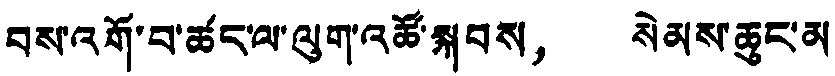བས་འགོ་བ་ཚང་ལ་ལུག་འཚོ་སྐབས， སེམས་ཆུང་མ་
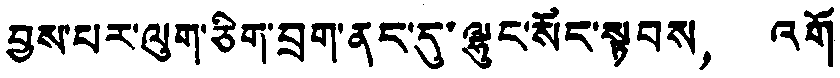བྱས་པར་ལུག་ཅིག་བྲག་ནང་དུ་ལྷུང་སོང་སྟབས， འགོ་
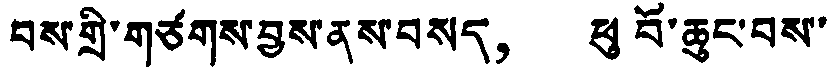བས་གྲི་གཙགས་བྱས་ནས་བསད， ཕུ བོ་ཆུང་བས་
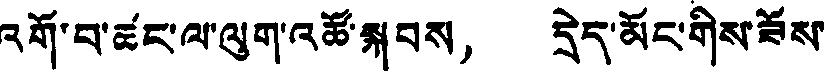འགོ་བ་ཚང་ལ་ལུག་འཚོ་སྐབས， དྲེད་མོང་གིས་ཟོས་
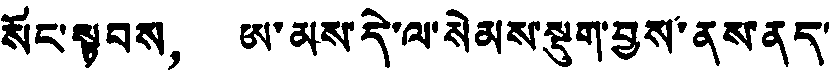སོང་སྟབས， ཨ་མས་དེ་ལ་སེམས་སྡུག་བྱས་ནས་ནད་
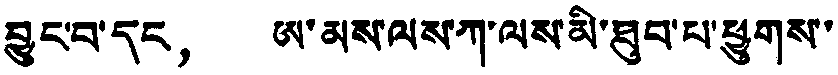བྱུང་བ་དང， ཨ་མས་ལས་ཀ་ལས་མི་ཐུབ་པ་ཕྱུགས་་
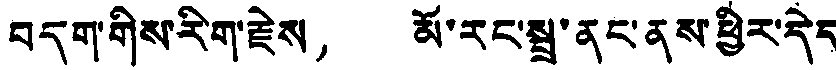བདག་གིས་རིག་རྗེས，མོ་རང་སྦྲ་ནང་ནས་ཕྱིར་དེད་
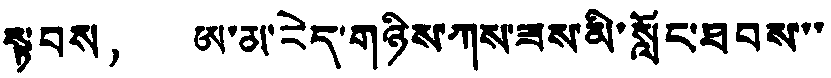སྟབས，ཨ་མ་རེད་གཉིས་ཀས་ཟས་མི་སློང་ཐབས་་
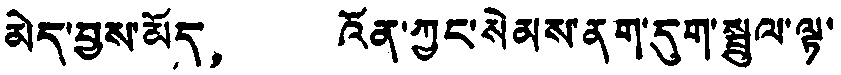མེད་བྱས་མོད，འོན་ཀྱང་སེམས་ནག་དུག་སྦྲུལ་ལྟ་
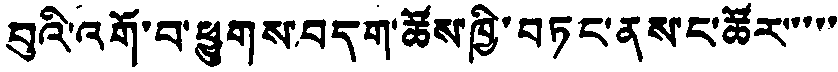བུའི་འགོ་བ་ཕྱུགས་བདག་ཚོས་ཁྱི་བཏང་ནས་ང་ཚོར་་་་་
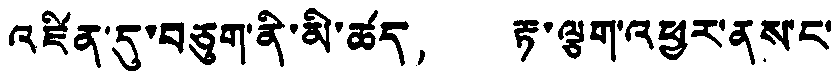འཛིན་དུ་བཅུག་ནི་མི་ཚད，རྟ་ལྕག་འཕྱུར་ནས་ང་
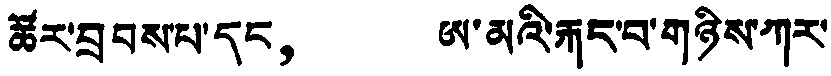ཚོར་བྲབས་པ་དང，ཨ་མའི་རྐད་བ་གཉིས་ཀར་
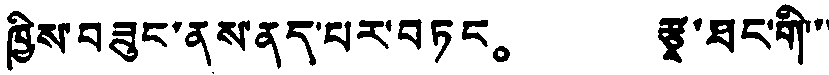ཁྱིས་བཟུང་ནས་ནད་པར་བཏང。རྩྭ་ཐང་གི་་་
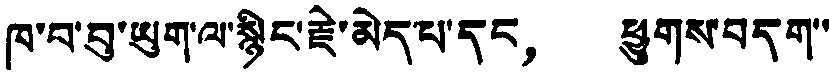ཁ་བ་བུ་ཡུག་ལ་སྙིང་རྗེ་མེད་པ་དང，ཕྱུགས་བདག་་
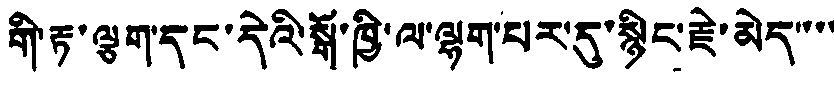གི་རྟ་ལྕག་དང་དེའི་སྒོ་ཁྱི་ལ་ལྷག་པར་དུ་སྙིང་རྗེ་མེད་་་་
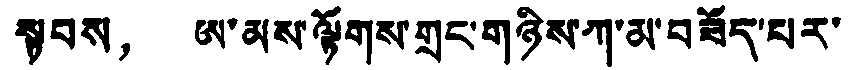སྟབས，ཨ་མས་ལྟོགས་གྲང་གཉིས་ཀ་མ་བཟོད་པར་
